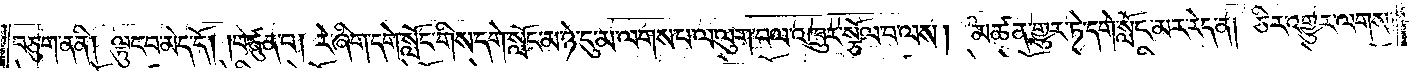བཅུག་ན་ནི། ལྟུང་བ་མེད་དོ། །བཙུན་པ། རེ་ཞིག་དགེ་སློང་གིས་དགེ་སློང་མ་ཉེ་དུ་མ་ལགས་པ་ལ་ལུག་བལ་འཁྲུར་སྩོལ་བ་ལས། མཚན་གྱུར་ཏེ་དགེ་སློང་མར་རེད་ན། ཅིར་འགྱུར་ལགས།
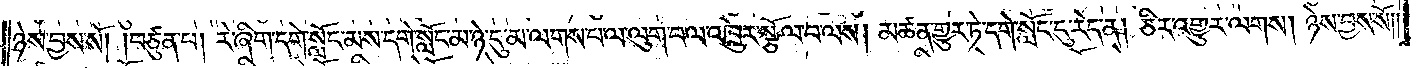ཉེས་བྱས་སོ། །བཙུན་པ། རེ་ཞིག་དགེ་སློང་མས་དགེ་སློང་མ་ཉེ་དུ་མ་ལགས་པ་ལ་ལུག་བལ་འཁྲུར་སྩོལ་བ་ལས། མཚན་གྱུར་ཏེ་དགེ་སློང་དུ་རེད་ན། ཅིར་འགྱུར་ལགས། ཉེས་བྱས་སོ། །
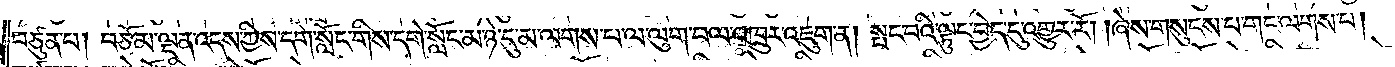བཙུན་པ། བཅོམ་ལྡན་འདས་ཀྱིས་དགེ་སློང་གིས་དགེ་སློང་མ་ཉེ་དུ་མ་ལགས་པ་ལ་ལུག་བལ་འཁྲུར་འཇུག་ན། སྤང་བའི་ལྟུང་བྱེད་དུ་འགྱུར་རོ། །ཞེས་གསུངས་པ་གང་ལགས་པ།
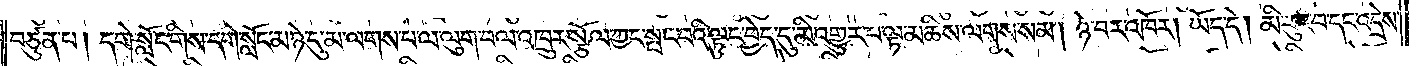བཙུན་པ། དགེ་སློང་གིས་དགེ་སློང་མ་ཉེ་དུ་མ་ལགས་པ་ལ་ལུག་བལ་འཁྲུར་སྩོལ་ཀྱང་སྤང་བའི་ལྟུང་བྱེད་དུ་མི་འགྱུར་བ་ལྟ་མཆིས་ལགས་སམ། ཉེ་བར་འཁོར། ཡོད་དེ། མི་རུང་བ་དང་འདྲེས་
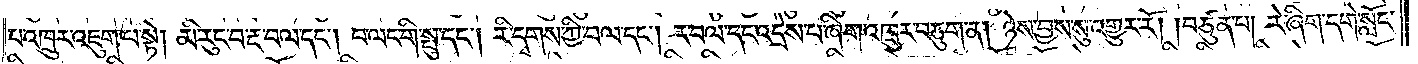པ་འཁྲུར་འཇུག་པ་སྟེ། མི་རུང་བ་རྔ་བལ་དང༌། བ་ལང་གི་སྤུ་དང༌། རི་དྭགས་ཀྱི་བལ་དང༌། ར་བལ་དང་འདྲེས་པ་ཞིག་འཁྲུར་བཅུག་ན། ཉེས་བྱས་སུ་འགྱུར་རོ། །བཙུན་པ། རེ་ཞིག་དགེ་སློང་
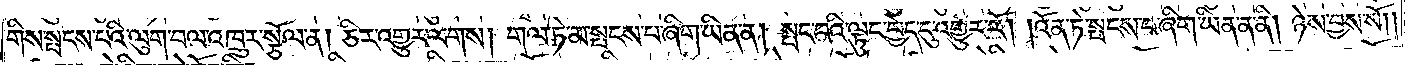གིས་སྤངས་པའི་ལུག་བལ་འཁྲུར་སྩོལ་ན། ཅིར་འགྱུར་ལགས། གལ་ཏེ་མ་སྤངས་པ་ཞིག་ཡིན་ན། སྤང་བའི་ལྟུང་བྱེད་དུ་འགྱུར་རོ། །འོན་ཏེ་སྤངས་པ་ཞིག་ཡིན་ན་ནི། ཉེས་བྱས་སོ། །
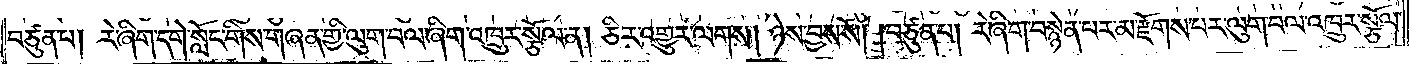བཙུན་པ། རེ་ཞིག་དགེ་སློང་གིས་གཞན་གྱི་ལུག་བལ་ཞིག་འཁྲུར་སྩོལ་ན། ཅིར་འགྱུར་ལགས། ཉེས་བྱས་སོ། །བཙུན་པ། རེ་ཞིག་བསྙེན་པར་མ་རྫོགས་པར་ལུག་བལ་འཁྲུར་སྩོལ་
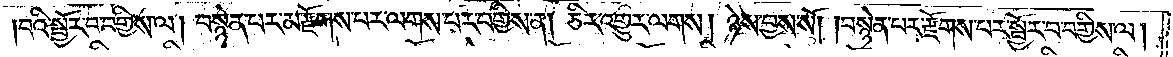།བའི་སྦྱོར་བ་བགྱིས་ལ། བསྙེན་པར་མ་རྫོགས་པར་ལགས་པར་བགྱིས་ན། ཅིར་འགྱུར་ལགས། ཉེས་བྱས་སོ། །བསྙེན་པར་རྫོགས་པར་སྦྱོར་བ་བགྱིས་ལ།
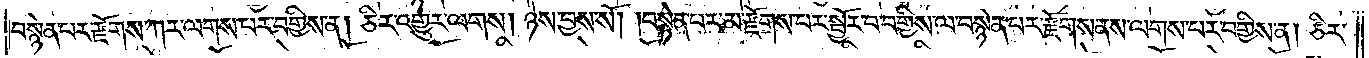བསྙེན་པར་རྫོགས་ཀར་ལགས་པར་བགྱིས་ན། ཅིར་འགྱུར་ལགས། ཉེས་བྱས་སོ། །བསྙེན་པར་མ་རྫོགས་པར་སྦྱོར་བ་བགྱིས་ལ་བསྙེན་པར་རྫོགས་ནས་ལགས་པར་བགྱིས་ན། ཅིར་
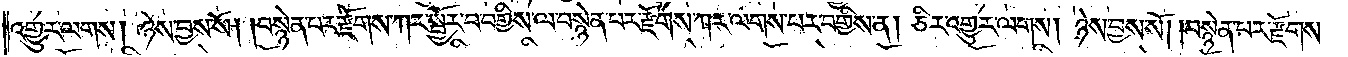འགྱུར་ལགས། ཉེས་བྱས་སོ། །བསྙེན་པར་རྫོགས་ཀར་སྦྱོར་བ་བགྱིས་ལ་བསྙེན་པར་རྫོགས་ཀར་ལགས་པར་བགྱིས་ན། ཅིར་འགྱུར་ལགས། ཉེས་བྱས་སོ། །བསྙེན་པར་རྫོགས་
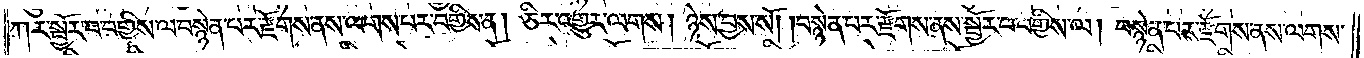ཀར་སྦྱོར་བ་བགྱིས་ལ་བསྙེན་པར་རྫོགས་ནས་ལགས་པར་བགྱིས་ན། ཅིར་འགྱུར་ལགས། ཉེས་བྱས་སོ། །བསྙེན་པར་རྫོགས་ནས་སྦྱོར་བ་བགྱིས་ལ། བསྙེན་པར་རྫོགས་ནས་ལགས་
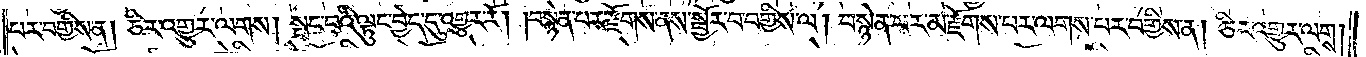པར་བགྱིས་ན། ཅིར་འགྱུར་ལགས། སྤང་བའི་ལྟུང་བྱེད་དུ་འགྱུར་རོ། །བསྙེན་པར་རྫོགས་ནས་སྦྱོར་བ་བགྱིས་ལ། བསྙེན་པར་མ་རྫོགས་པར་ལགས་པར་བགྱིས་ན། ཅིར་འགྱུར་ལགས།
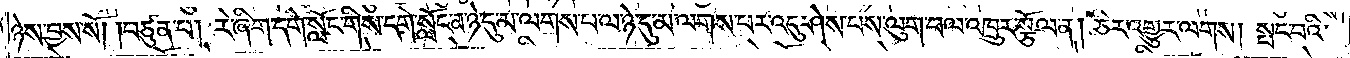ཉེས་བྱས་སོ། །བཙུན་པ། རེ་ཞིག་དགེ་སློང་གིས་དགེ་སློང་མ་ཉེ་དུ་མ་ལགས་པ་ལ་ཉེ་དུ་མ་ལགས་པར་འདུ་ཤེས་པས་ལུག་བལ་འཁྲུར་སྩོལ་ན། ཅིར་འགྱུར་ལགས། སྤང་བའི་
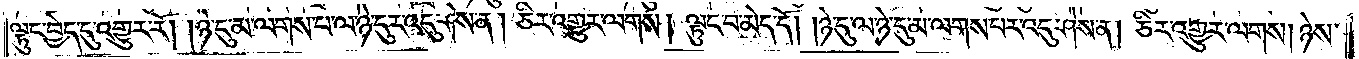ལྟུང་བྱེད་དུ་འགྱུར་རོ། །ཉེ་དུ་མ་ལགས་པ་ལ་ཉེ་དུར་འདུ་ཤེས་ན། ཅིར་འགྱུར་ལགས། ལྟུང་བ་མེད་དོ། །ཉེ་དུ་ལ་ཉེ་དུ་མ་ལགས་པར་འདུ་ཤེས་ན། ཅིར་འགྱུར་ལགས། ཉེས་
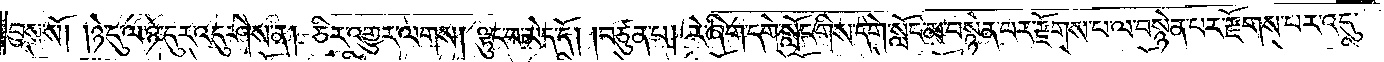བྱས་སོ། །ཉེ་དུ་ལ་ཉེ་དུར་འདུ་ཤེས་ན། ཅིར་འགྱུར་ལགས། ལྟུང་བ་མེད་དོ། །བཙུན་པ། རེ་ཞིག་དགེ་སློང་གིས་དགེ་སློང་མ་བསྙེན་པར་རྫོགས་པ་ལ་བསྙེན་པར་རྫོགས་པར་འདུ་
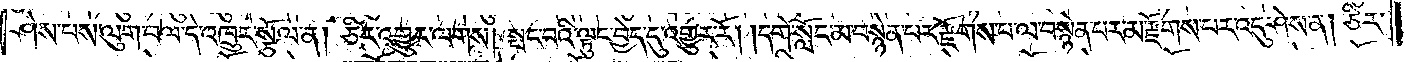ཤེས་པས་ལུག་བལ་དེ་འཁྲུར་སྩོལ་ན། ཅིར་འགྱུར་ལགས། སྤང་བའི་ལྟུང་བྱེད་དུ་འགྱུར་རོ། །དགེ་སློང་མ་བསྙེན་པར་རྫོགས་པ་ལ་བསྙེན་པར་མ་རྫོགས་པར་འདུ་ཤེས་ན། ཅིར་
